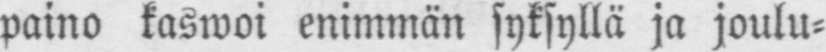paino kaswoi enimmän syksyllä ja joulu-
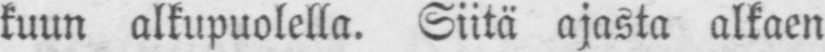kuun alkupuolella. Siitä ajasta alkaen
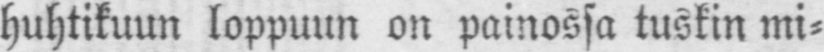huhtikuun loppuun on painossa tuskin mi-
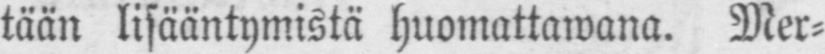tään lisääntymistä huomattawana. Mer-
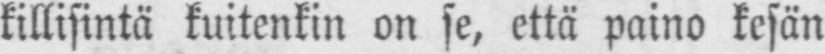killisintä kuitenkin on se, että paino kesän
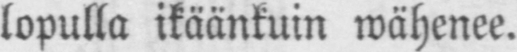lopulla ikäänkuin wähenee.
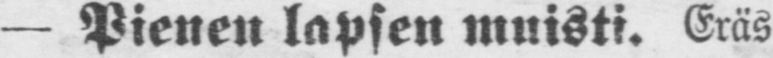— Pienen lapsen muisti. Eräs
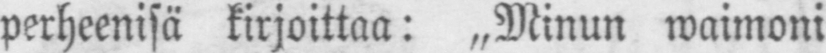perheenisä kirjoittaa: „Minun waimoni
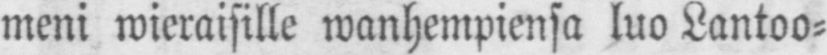meni wieraisille wanhempiensa luo Lantoo-
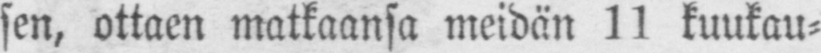sen, ottaen matkaansa meidän 11 kuukau-
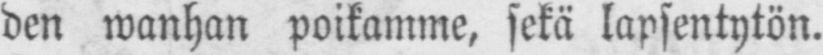den wanhan poikamme, sekä lapsentytön.
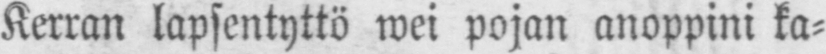Kerran lapsentyttö wei pojan anoppini ka-
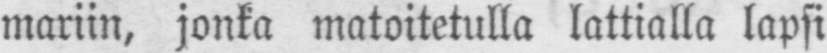mariin, jonka matoitetulla lattialla lapsi
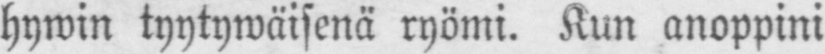hywin tyytywäisenä ryömi. Kun anoppini
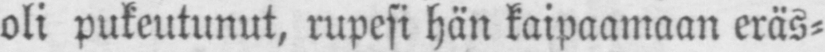oli pukeutunut, rupesi hän kaipaamaan eräs-
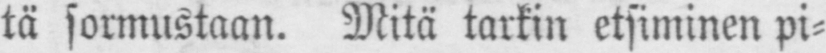tä sormustaan. Mitä tarkin etsiminen pi-
